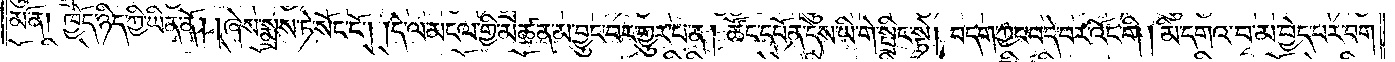མོ་ན། ཁྱོད་ཉིད་ཀྱི་ཡིན་ནོ། །ཞེས་སྨྲས་ཏེ་སོང་ངོ༌། །དེ་ལ་མངལ་གྱི་མཚན་མ་བྱུང་བར་གྱུར་པ་ན། ཚོང་དཔོན་དེས་ཡི་གེ་སྤྲིང་སྟེ། བདག་ཀྱང་བདེ་བར་འོང་གི། མི་དགའ་བ་མ་བྱེད་པར་བག་
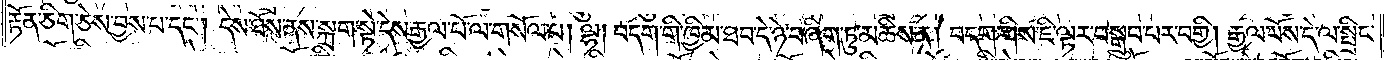རྟོན་ཅིག་ཅེས་བྱས་པ་དང༌། དེས་ཐོས་ནས་སྐྲག་སྟེ་དེས་རྒྱལ་པོ་ལ་གསོལ་པ། ལྷ། བདག་གི་ཁྱིམ་ཐབ་དེ་ཉེ་བ་ཞིག་ཏུ་མཆིས་ན། བདག་གིས་ཇི་ལྟར་བསྒྲུབ་པར་བགྱི། རྒྱལ་པོས་དེ་ལ་སྤྲིང་པ༑
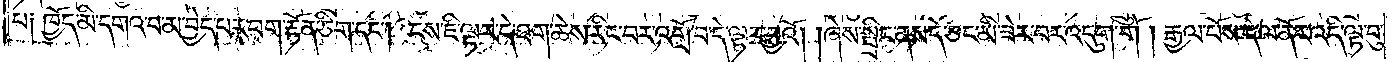ཁྱོད་མི་དགའ་བ་མ་བྱེད་པར་བག་རྟོན་ཅིག་དང༌། ངས་ཇི་ལྟར་དེ་ཐག་ཆེས་རིང་བར་འགྲོ་བ་དེ་ལྟར་བྱའོ། །ཞེས་སྤྲིང་ནས་དེ་ཅང་མི་ཟེར་བར་འདུག་གོ། རྒྱལ་པོས་དེ་ལ་ནོར་འདི་ལྟ་བུ་
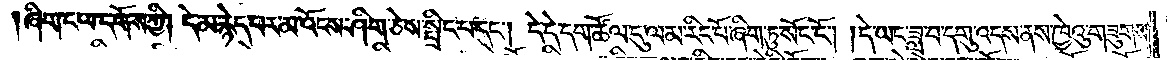ཞིག་ང་ལ་དགོས་ཀྱི། དེ་མ་རྙེད་པར་མ་འོངས་ཤིག་ཅེས་སྤྲིང་པ་དང༌། དེ་དེ་དག་ཚོལ་དུ་ལམ་རིང་པོ་ཞིག་ཏུ་སོང་ངོ༌། །དེ་ཡང་ཟླ་བ་དགུ་འདས་ནས་ཁྱེའུ་གཟུགས་
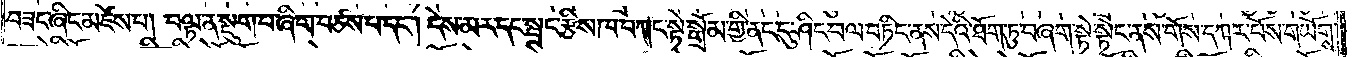བཟང་ཞིང་མཛེས་པ། བལྟ་ན་སྡུག་པ་ཞིག་བཙས་པ་དང༌། དེས་མར་དང་སྦྲང་རྩིས་ཁ་བཀང་སྟེ་སྒྲོམ་གྱི་ནང་དུ་ཤིང་བལ་བཏིང་ནས་དེའི་ཐོག་ཏུ་བཞག་སྟེ་སྟེང་ནས་གོས་དཀར་པོས་གཡོགས་
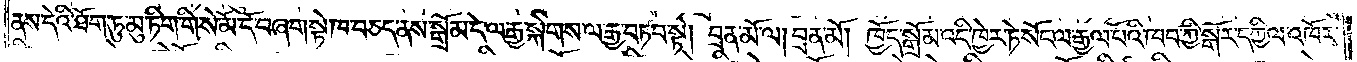ནས་དེའི་ཐོག་ཏུ་མུ་ཏིག་གི་སེ་མོ་དོ་བཞག་སྟེ་ཁ་བཅད་ནས་སྒྲོམ་དེ་ལ་རྒྱ་སྐེགས་ལ་རྒྱ་བཏབ་སྟེ། བྲན་མོ་ལ། བྲན་མོ། ཁྱོད་སྒྲོམ་འདི་ཁྱེར་ཏེ་སོང་ལ་རྒྱལ་པོའི་ཁབ་ཀྱི་སྒོར་དཀྱིལ་འཁོར་
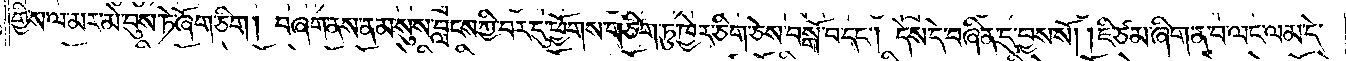གྱིས་ལ་མར་མེ་བུས་ཏེ་ཞོག་ཅིག། བཞག་ནས་ནམ་སུས་བླངས་ཀྱི་བར་དུ་ཕྱོགས་གཅིག་ཏུ་ཁྱེར་ཅིག་ཅེས་བསྒོ་བ་དང༌། དེས་དེ་བཞིན་དུ་བྱས་སོ། །ཇི་ཙམ་ཞིག་ན་བ་ལང་ལམ་དེ་
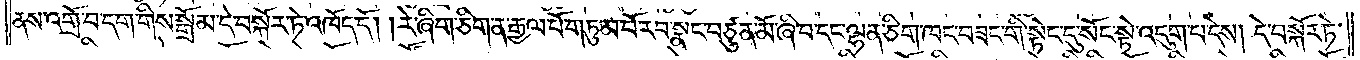ནས་འགྲོ་བ་དག་གིས་སྒྲོམ་དེ་བསྐོར་ཏེ་འཁོད་དོ། །རེ་ཞིག་ཅིག་ན་རྒྱལ་པོ་གཏུམ་པོ་རབ་སྣང་བཙུན་མོ་ཞི་བ་དང་ལྷན་ཅིག་ཁང་བཟང་གི་སྟེང་དུ་སོང་སྟེ་འདུག་པ་དེས། དེ་བསྐོར་ཏེ་
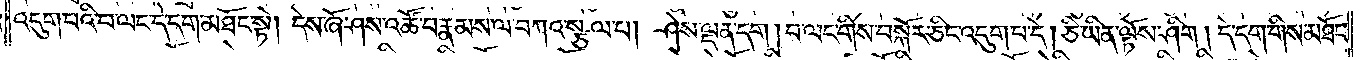འདུག་པའི་བ་ལང་དེ་དག་མཐོང་སྟེ། དེས་ཞོ་ཤས་འཚོ་བ་རྣམས་ལ་བཀའ་སྩལ་པ། ཤེས་ལྡན་དག། བ་ལང་གིས་བསྐོར་ཅིང་འདུག་པ་དེ། ཅི་ཡིན་ལྟོས་ཤིག། དེ་དག་གིས་མཐོང་
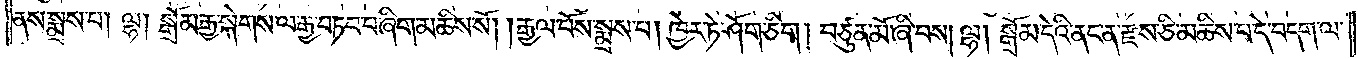ནས་སྨྲས་པ། ལྷ། སྒྲོམ་རྒྱ་སྐེགས་ལ་རྒྱ་བཏབ་པ་ཞིག་མཆིས་སོ། །རྒྱལ་པོས་སྨྲས་པ། ཁྱེར་ཏེ་ཤོག་ཅིག། བཙུན་མོ་ཞི་བས། ལྷ། སྒྲོམ་དེའི་ནང་ན་རྫས་ཅི་མཆིས་པ་དེ་བདག་ལ་
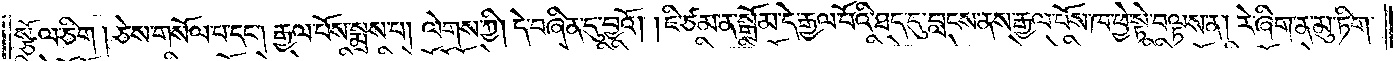སྩོལ་ཅིག །ཅེས་གསོལ་པ་དང༌། རྒྱལ་པོས་སྨྲས་པ། ལེགས་ཀྱི། དེ་བཞིན་དུ་བྱའོ། །ཇི་ཙམ་ན་སྒྲོམ་དེ་རྒྱལ་པོའི་ཐད་དུ་བླངས་ནས་རྒྱལ་པོས་ཁ་བྱེ་སྟེ་བལྟས་ན། རེ་ཞིག་ན་མུ་ཏིག་
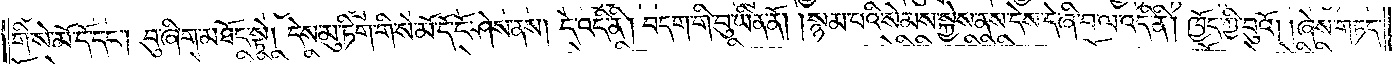གི་སེ་མོ་དོ་དང༌། བུ་ཞིག་མཐོང་སྟེ། དེས་མུ་ཏིག་གི་སེ་མོ་དོ་ངོ་ཤེས་ནས། དེ་འདི་ནི། བདག་གི་བུ་ཡིན་ནོ། །སྙམ་པའི་སེམས་སྐྱེས་ནས་དེས་དེ་ཞི་བ་ལ་འདི་ནི། ཁྱོད་ཀྱི་བུའོ། །ཞེས་གཏད་
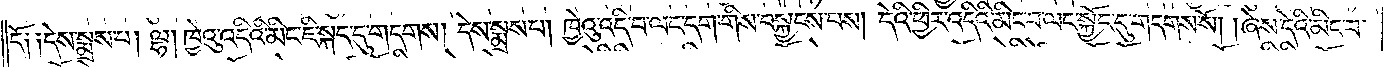དོ༑ ༑དེས་སྨྲས་པ། ལྷ། ཁྱེའུ་འདིའི་མིང་ཇི་སྐད་དུ་གདགས། དེས་སྨྲས་པ། ཁྱེའུ་འདི་བ་ལང་དག་གིས་བསྐྱངས་པས། དེའི་ཕྱིར་འདིའི་མིང་བ་ལང་སྐྱོང་དུ་གདགས་སོ། །ཞེས་དེའི་མིང་པ་
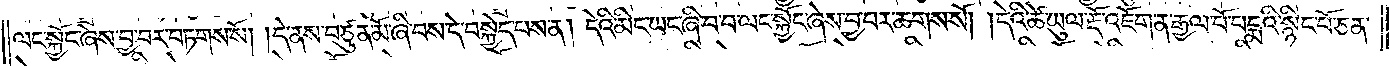ལང་སྐྱོང་ཞེས་བྱ་བར་བཏགས་སོ། །དེ་ནས་བཙུན་མོ་ཞི་བས་དེ་བསྐྱེད་པས་ན། དེའི་མིང་ཡང་ཞི་བ་བ་ལང་སྐྱོང་ཞེས་བྱ་བར་ཆགས་སོ། །དེའི་ཚེ་ཡུལ་རྡོ་འཇོག་ན་རྒྱལ་པོ་པདྨའི་སྙིང་པོ་ཅན་
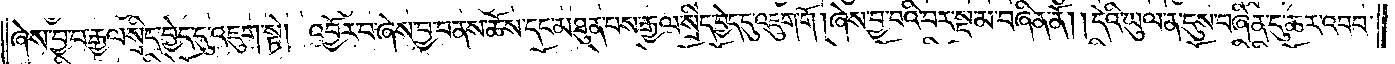ཞེས་བྱ་བ་རྒྱལ་སྲིད་བྱེད་དུ་འཇུག་སྟེ། འབྱོར་པ་ཞེས་བྱ་བ་ནས་ཆོས་དང་མཐུན་པས་རྒྱལ་སྲིད་བྱེད་དུ་འཇུག་གོ། ཞེས་བྱ་བའི་བར་སྔ་མ་བཞིན་ནོ། །དེའི་ཡུལ་ན་དུས་བཞིན་དུ་ཆར་འབབ་
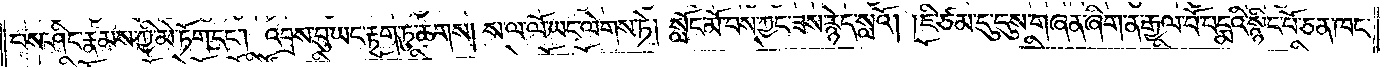པས་ཤིང་རྣམས་ཀྱི་མེ་ཏོག་དང༌། འབྲས་བུ་ཡང་རྟག་ཏུ་ཆགས། ས་ལ་ལོ་ཡང་ལེགས་ཏེ། སློང་མོ་བས་ཀྱང་ཟས་རྙེད་སླའོ། །ཇི་ཙམ་དུ་དུས་གཞན་ཞིག་ན་རྒྱལ་པོ་པདྨའི་སྙིང་པོ་ཅན་ཁང་
